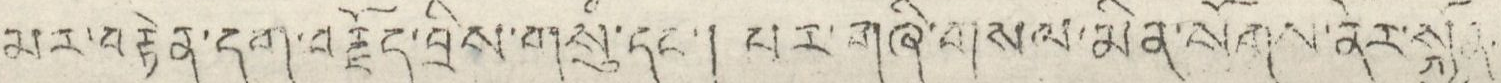མར་བརྟེན་དག་བརྗོད་བྲིས་གསུཾ་དང་། པར་གཞི་གསལ་མིན་སོགས་ནེར་སྐྱོན་
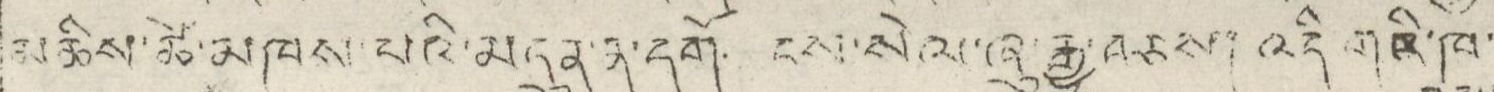མཆིས་ཚེ་མཁས་པའི་མདུན་ན་དགོ ངས་སེལ་ཞུ་རྒྱུ་བཅས། འདི གའི་ཁ་
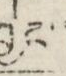བྱང་།
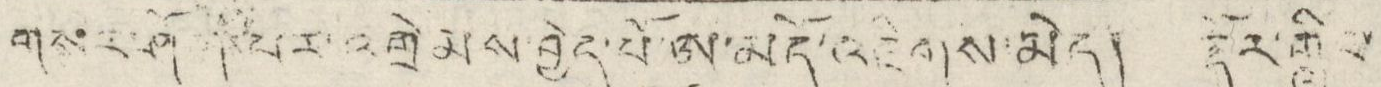གསར་ཤོག་པར་འགྲེམས་བྱེད་པོ་ཨ་མདོ་འཇིགས་མེད། རྡོར་གླིང་
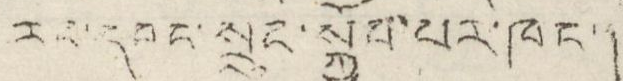རང་དབང་སྲུང་སྐྱོབ་པར་ཁང་།
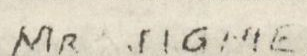MR JIGME,
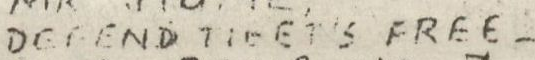DEFEND TIBET'S FREE-
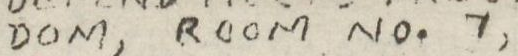DOM, ROOM NO. 7,
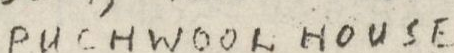PUCHWOOL HOUSE
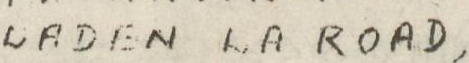LADEN LA ROAD,
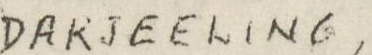DARJEELING,
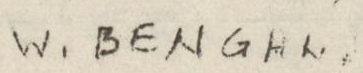W. BENGAL.
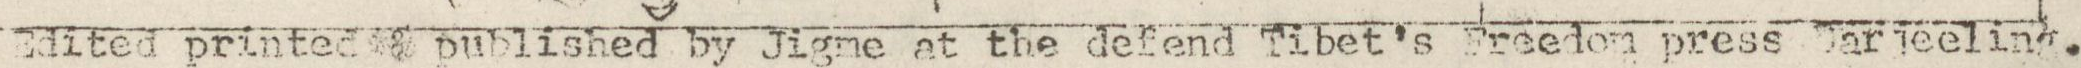Edited printed & published by Jigme at the defend Tibet's Freedom press Darjeeling.
